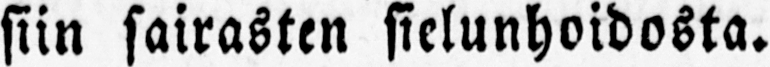siin sairasten sielunhoidosta.
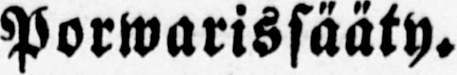Porwarissääty.
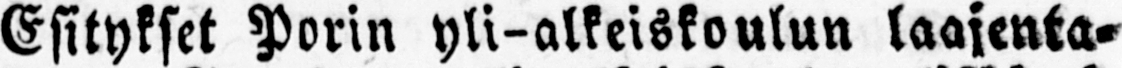Esitykset Porin yli-alkeiskoulun laajenta-
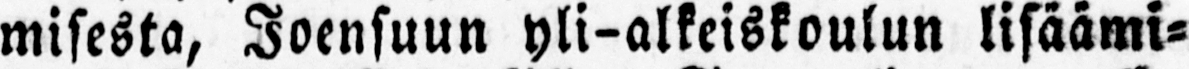misesta, Joensuun yli-alkeiskoulun lisäämi-
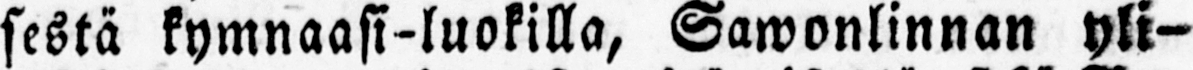sestä kymnaasi-luokilla, Sawonlinnan yli-
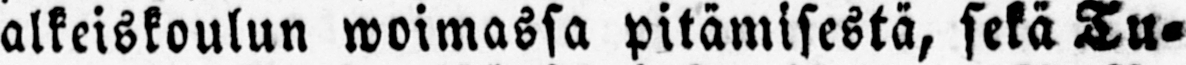alkeiskoulun woimassa pitämisestä, sekä Tu-
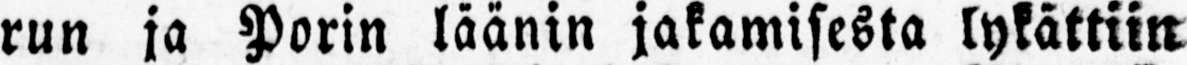run ja Porin läänin jakamisesta lykättiin
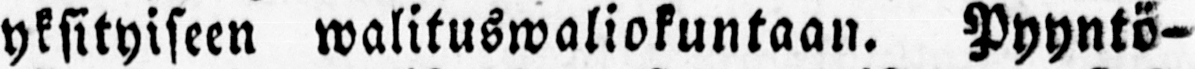yksityiseen walituswaliokuntaan. Pyyntö-
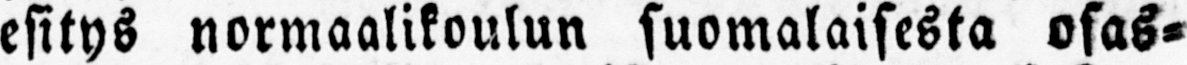esitys normaalikoulun suomalaisesta osas-
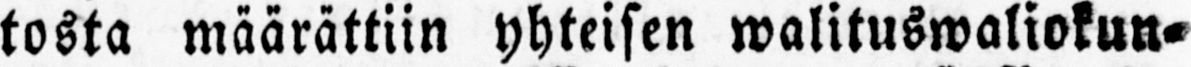tosta määrättiin yhteisen walituswaliokun-
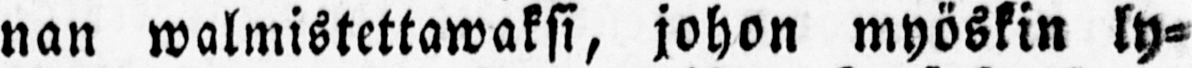nan walmistettawaksi, johon myöskin ly-
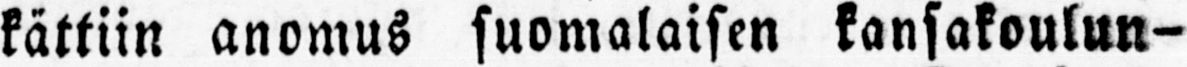kättiin anomus suomalaisen kansakoulun-
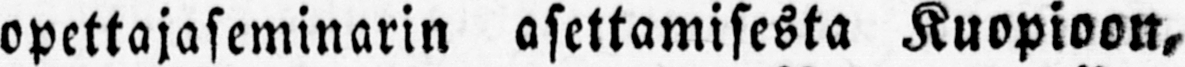opettajaseminarin asettamisesta Kuopioon,
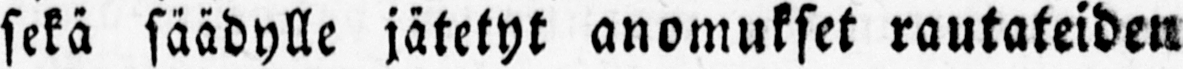sekä säädylle jätetyt anomukset rautateiden
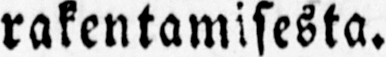rakentamisesta.
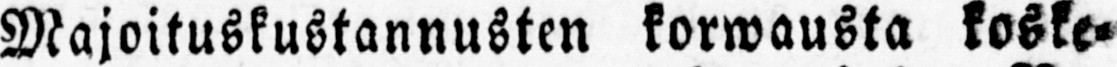Majoituskustannusten korwausta koske-
